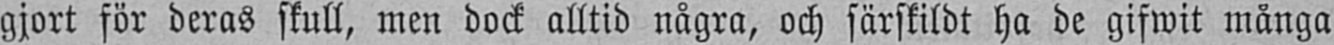gjort för deras skull, men dock alltid några, och särskildt ha de gifwit många
